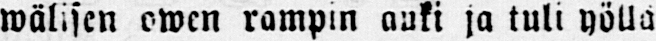wälisen owen rampin auki ja tuli yöllä
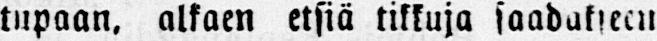tupaan, alkaen etsiä tikkuja saadakseen
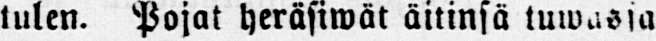tulen. Pojat heräsiwät äitinsä tuwassa
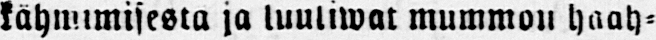kähmimisesta ja luuliwat mummon haah-
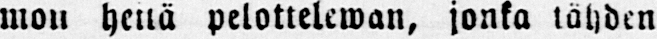mon heitä pelottelewan, jonka tähden
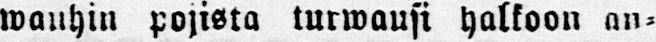wauhin pojista turwausi halkoon an-
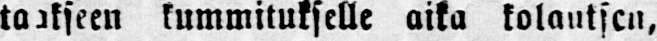taakseen kummitukselle aika kolauksen,
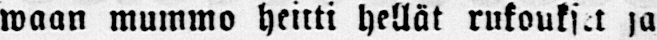waan mummo heitti hellät rukoukset ja
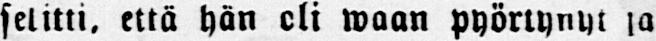selitti, että hän oli waan pyörtynyt ja
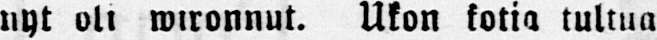nyt oli wironnut. Ukon kotia tultua
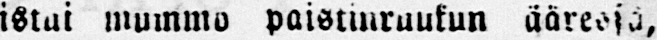istui mummo paistinruukun ääressä,
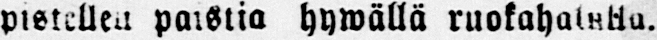pistellen paistia hywällä ruokahalslla.
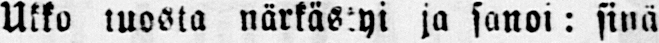Ukko tuosta närkästyi ja sanoi: sinä
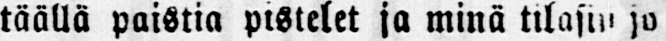täällä paistia pistelet ja minä tilasin jo
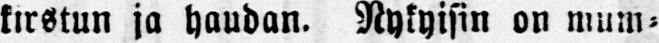kirstun ja haudan. Nykyisin on mum-
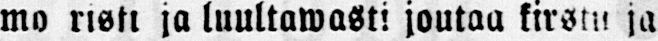mo riski ja luultawasti joutaa kirstu ja
